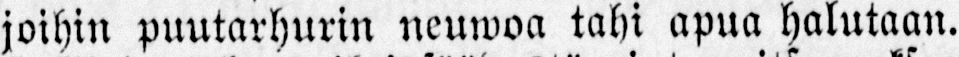joihin puutarhurin neuwoa tahi apua halutaan.
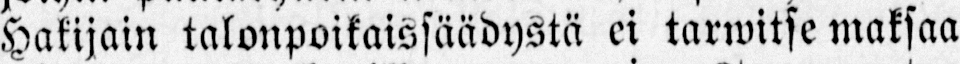Hakijain talonpoikaissäädystä ei tarwitse maksaa
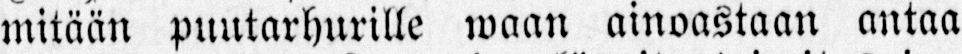mitään puutarhurille waan ainoastaan antaa
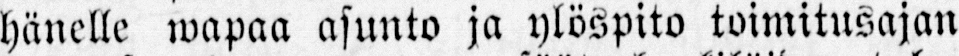hänelle, wapaa asunto ja ylöspito toimitusajan
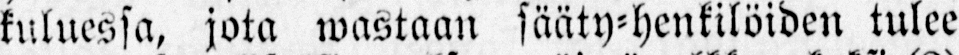kuluessa, jota wastaan sääty-henkilöiden tulee
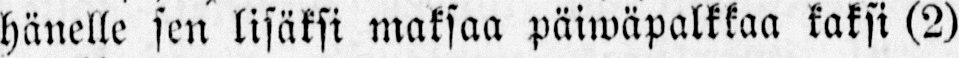hänelle sen lisäksi maksaa päiwäpalkkaa kaksi (2)
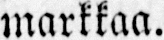markkaa.
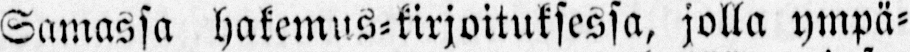Samassa hakemus-kirjoituksessa, jolta ympä-
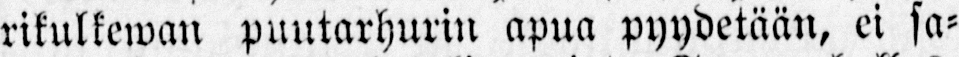rikulkewan puutarhurin apua pyydetään, ei sa-
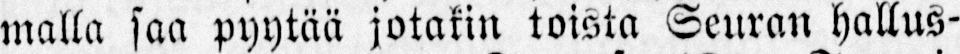malla saa pyytää jotakin toista Seuran hallus-
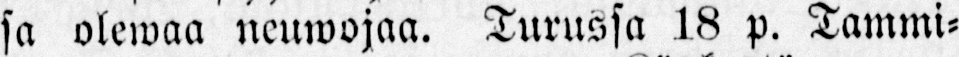sa olewaa neuwojaa. Turussa 18 p. Tammi-
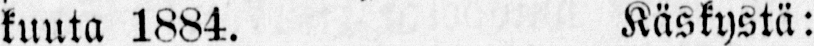kuuta 1884. Käskystä:
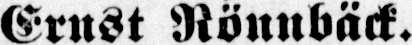Ernst Rönnbäck.
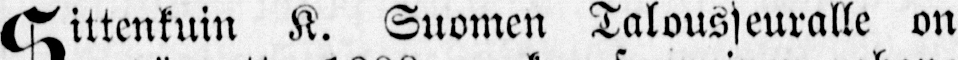Sittenkuin K. Suomen Talousseuralle on
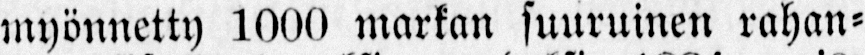myönnetty 1000 markan suuruinen rahan-
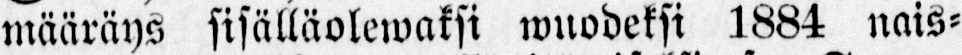määräys sisälläolewaksi wuodeksi 1884 nais-
